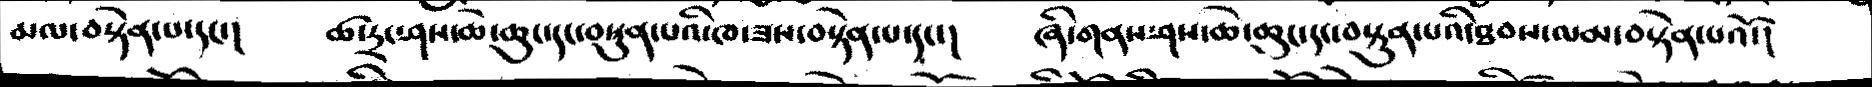མལ་བསྟེན་པ་དང་།   ཚ་དྲང་ཤས་ཆེ་ཆུང་དང་བསྟུན་པའི་ཁ་ཟས་བསྟེན་པ་དང་།   ཞི་གནས་ཤས་ཆེ་ཆུང་དང་བསྟུན་པའི་ཐབས་ལམ་བསྟེནཔའོ་།
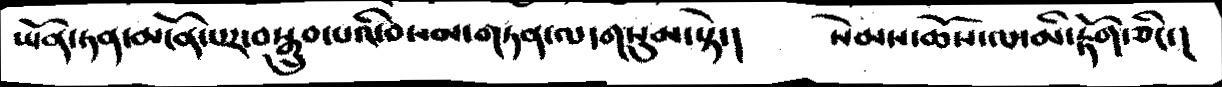ཡོན་ཏན་མངོན་པར་བསྒྲུབ་པའི་བསམ་གཏན་ལ་གསུམ་སྟེ་།   སེམས་ཆོས་ལ་མི་རྟོག་ཅིང་།
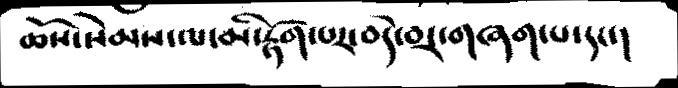ཆོས་སེམས་ལ་མི་རྟོག་པར་བདེ་བར་གཞག་པ་དང་།
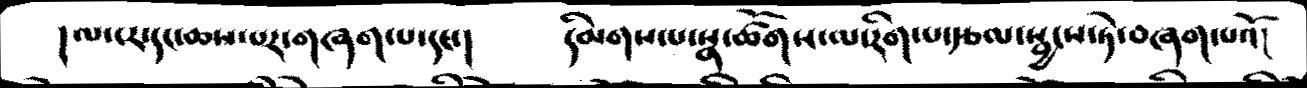།ལ་དར་དང་ཆས་པར་གཞག་པ་དང་།    དམིགས་པ་སྣ་ཚོགས་ལ་རིག་པ་རྩལ་སྦྱངས་ཏེ་བཞག་པའོ།
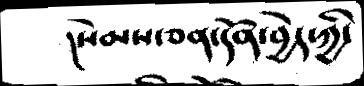།སེམས་ཅན་དོན་བྱེད་ཀྱི་
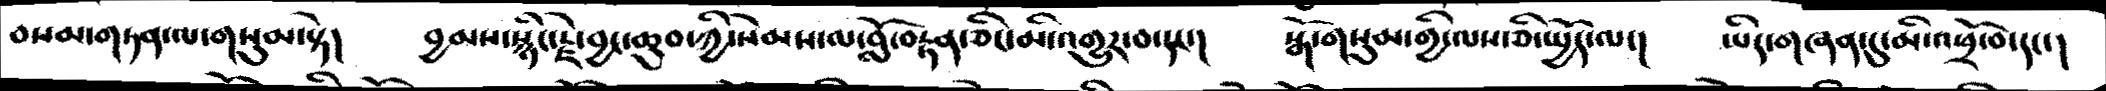བསམ་གཏན་ལ་གསུམ་སྟེ།   བྱམས་སྙིང་རྗེ་བྱང་ཆུབ་ཀྱི་སེམས་ལ་བློ་བརྟན་ཅིང་མི་འགྱུར་བ་དང་།   སྒོ་གསུམ་གྱི་ལས་ཅི་སྤྱོད་ལ་།  ཡིད་གཞན་དུ་མི་འཕྲོ་བ་དང་།
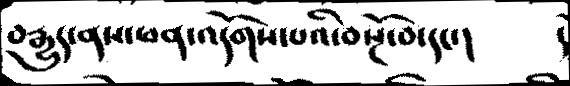བརྒྱུད་ནས་ཕན་འདོགས་པའི་བསྔོ་བ་དང་།    དེ
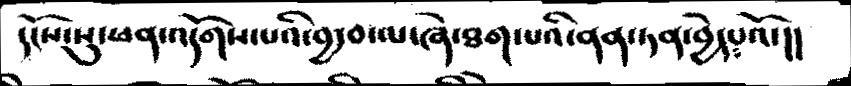དངོས་སུ་ཕན་འདོགས་པའི་བྱ་བ་ལ་ཞེ་ཐག་པའི་ནན་ཏན་བྱེད་པའོ།།
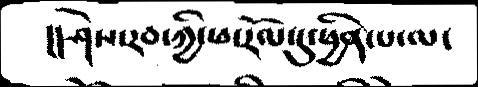།།ཤེས་རབ་ཀྱི་ཕ་རོལ་དུ་ཕྱིན་པ་ལ་
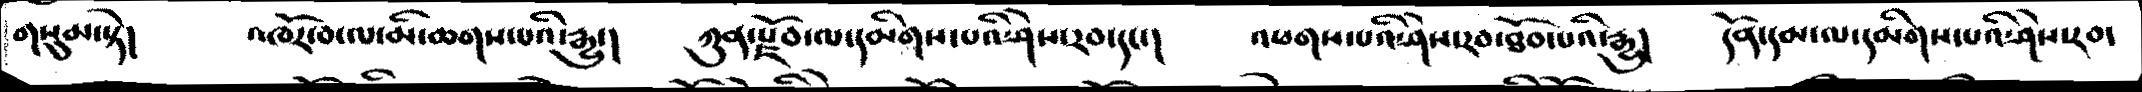གསུམ་སྟེ།   འཁོར་བ་ལ་མི་ཆགས་པའི་རྒྱུ་།   ཀུན་རྫོབ་ལ་དམིགས་པའི་ཤེས་རབ་དང་།  འཕགས་པའི་ཤེས་རབ་ཐོབ་པའི་རྒྱུ།   དོན་དམ་ལ་དམིགས་པའི་ཤེས་རབ་
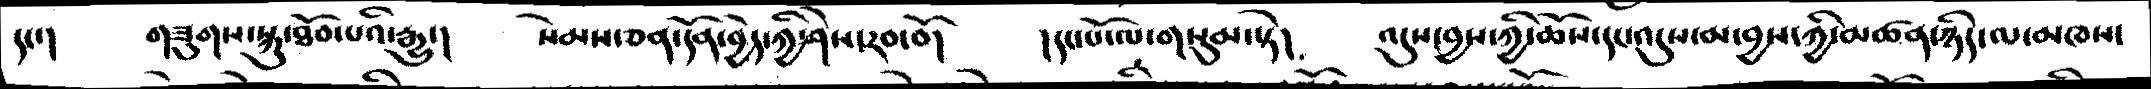དང་།   གཟུགས་སྐུ་ཐོབ་པའི་རྒྱུ་།   སེམས་ཅན་དོན་བྱེད་ཀྱི་ཤེས་རབ་བོ།   །དང་པོ་ལ་གསུམ་སྟེ།   འདུས་བྱས་ཀྱི་ཆོས་དང་འདུས་མ་བྱས་ཀྱི་མཚན་ཉིད་ལ་མཁས་
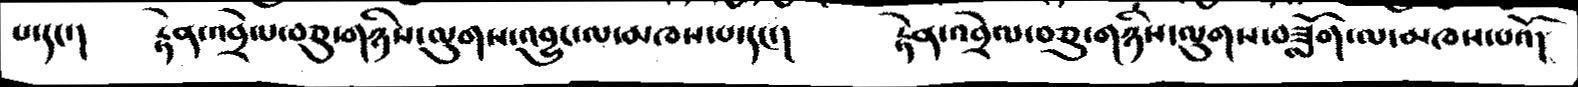པ་དང་།   རྟེན་འབྲེལ་བཅུ་གཉིས་ལུགས་འབྱུང་ལ་མཁས་པ་དང་།    རྟེན་འབྲེལ་བཅུ་གཉིས་ལུགས་བཟློག་ལ་མཁས་པའོ།
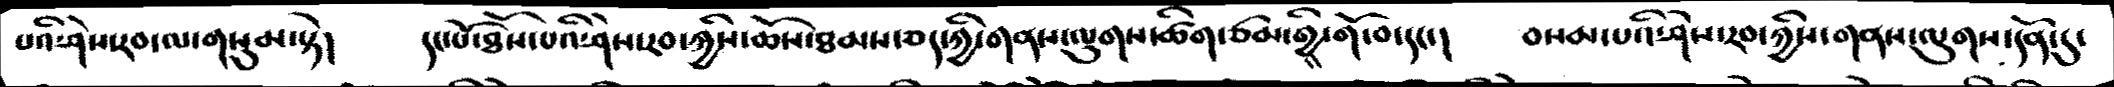པའི་ཤེས་རབ་ལ་གསུམ་སྟེ།   དང་པོ་ཐོས་པའི་ཤེས་རབ་ཀྱིས་ཆོས་ཐམས་ཅད་ཀྱི་གནས་ལུགས་ཚིག་ཙམ་གྱི་གོ་བ་དང་།   བསམ་པའི་ཤེས་རབ་ཀྱིས་གནས་ལུགས་དོན་དུ་
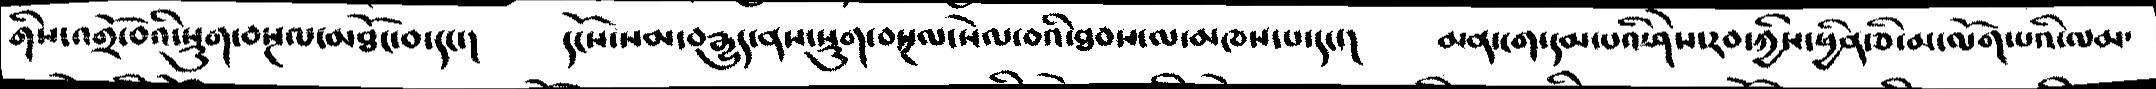གིས་འགྲོ་བའི་སྡུག་བསྔལ་མཐོང་བ་དང་།   དངོས་སམ་བརྒྱུད་ནས་སྡུག་བསྔལ་སེལ་བའི་ཐབས་ལ་མཁས་པ་དང་།   མན་ངག་དམ་པའི་ཤེས་རབ་ཀྱིས་ཕྱིན་ཅི་མ་ལོག་པའི་ལམ་
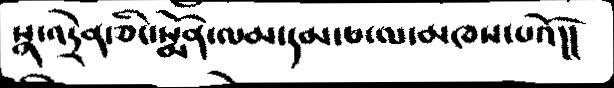སྣ་འདྲེན་ཅིང་སྨོན་ལམ་དམ་པ་ལ་མཁས་པའོ།།
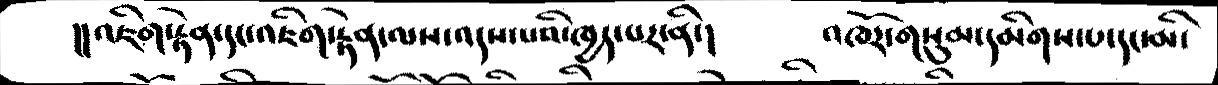།།འཇིག་རྟེན་དང་འཇིག་རྟེན་ལས་འདས་པའི་ཁྱད་པར་ནི།    འཁོར་གསུམ་དམིགས་པ་དང་མི་
